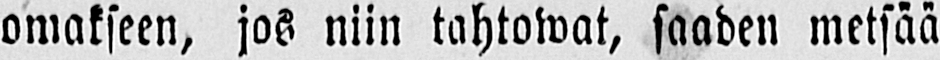omakseen, jos niin tahtowat, saaden metsää
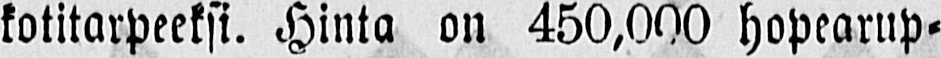kotitarpeeksi. Hinta on 450,000 hopearup-
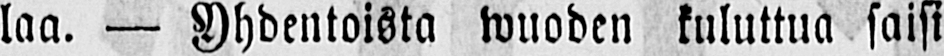laa. — Yhdentoista wuoden kuluttua saisi
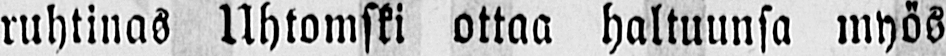ruhtinas Uhtomski ottaa haltuunsa myös
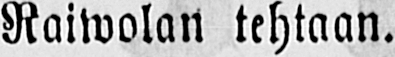Raiwolan tehtaan.
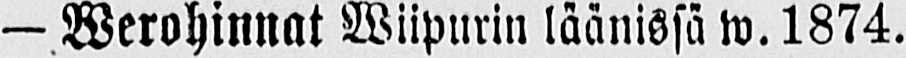— Werohinnat Wiipurin läänissä w. 1874.
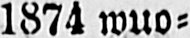1874 wuo-
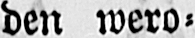den wero-
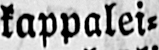kappalei-
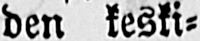den keski-
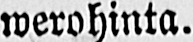werohinta.
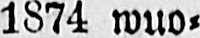1874 wuo-
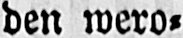den wero-
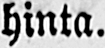hinta.
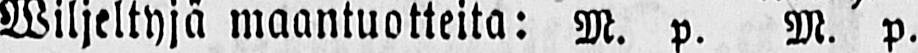Wiljeltyjä maantuotteita: M. p. M. p.
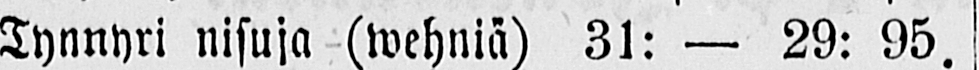Tynnyri nisuja (wehniä) 31: — 29: 95.!
